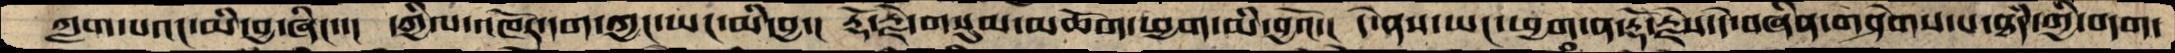ཀླག་པའང་མི་བྱ་ཞིང་་།  དཀྱིལ་འཁོར་དག་ཀྱང་ཡང་མི་བྱ་།  རྡོ་རྗེ་གསུམ་མཆོག་ཕྱག་མི་བྱའོ་།  དེ་ནས་ཡང་ཕྱག་ན་རྡོ་རྗེས་དེ་བཞིན་གཤེགས་པ་ཐདཾ་ཀྱི་བདག་
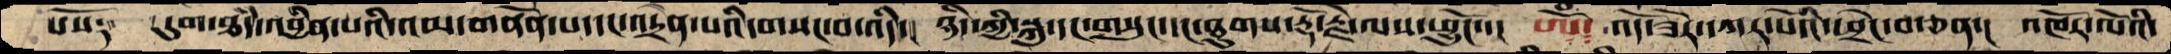པོས༑  དུག་ཐདཾ་འབྱིན་པའི་གནོན་པ་དང་འདྲེན་པའི་གསང་བ་འདི་།  ཉིད་ཀྱི་སྐུ་དང་གསུང་དང་ཐུགས་རྡོ་རྗེ་ལས་ཕྱུངོ་་།  ཨོཾ༴  འོད་ཟེར་དཀར་པོའི་ཕྲེང་བ་ཅན་།  འཁོར་ལོའི་
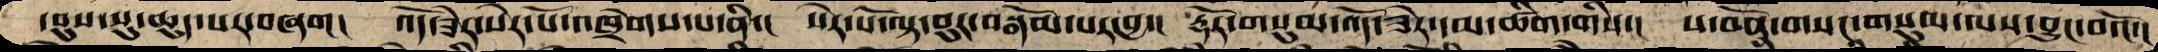དབུས་སུ་ཆུད་པར་བཞག།  འོད་ཟེར་སེར་པོ་འཁྲེགས་པ་ནི་།  སེར་པོ་ལྟ་བུར་བསྒོམ་པར་བྱ་།  རྡོར་གསུམ་འོད་ཟེར་དམ་ཚིག་གིས་།  ས་བོན་གསང་གསུམ་ལས་བྱུང་བའོ་།
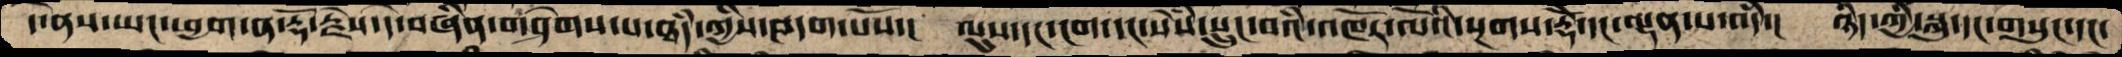དེ་ནས་ཡང་ཕྱག་ན་རྡོ་རྗེས་དེ་བཞིན་གཤེགས་པ་ཐཾད་ཀྱིས་བདག་པོས་།  ལུས་དང་ངག་དང་སེཾས་སྲུང་བའི་འཁོར་ལོའི་སྔགས་རྡོེ་་དང་ལྡན་པ་འདི་།  ཉིད་ཀྱི་སྐུ་དང་གསུང་དང་
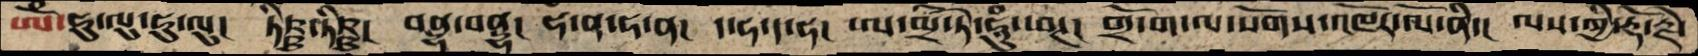ཨོཾ་ཧུ་ལུ་ཧུ་ལུ།  ཏིཥྛ་ཏིཥྛ།  བྷནྡྷ་བྷནྡྷ།  ཧ་ན་ཧ་ན།  ད་ཧ་ད་ཧ།  ཨ་མྲི་ཏེ་ཧཱུཾ་ཕཊ།  གྲོ་ག་ལ་སོགས་འཁོར་ལོ་ནི་།  ལས་ཀྱི་རྡོ་རྗེ་
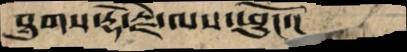ཐུགས་རྡོ་རྗེ་ལས་ཕྱུངོ་།
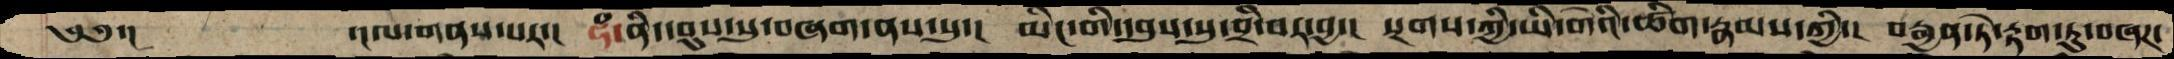༄༅་།    ་།ལ་གནས་པར་།  ཧཾ་ནི་དབུས་སུ་བཞག་ནས་སུ་།  མིང་གི་དབུས་སུ་བྲི་བར་བྱ་།  སྔགས་ཀྱི་ཡི་གེའི་ཚིག་རྣམས་ཀྱི་།  བརྒྱན་ཏེ་རྟག་ཏུ་བཞཌ་
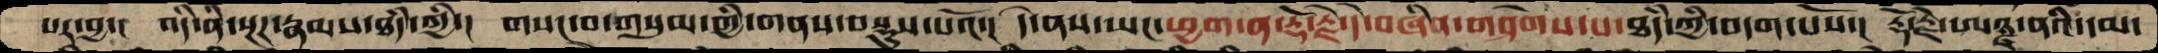པར་བྱ་།   འདི་ནི་སྔཌ་རྣམས་ཐཾད་ཀྱི་།  གསང་བ་གསུམ་གྱི་གནས་བསྡུས་པའོ་།  དེ་ནས་ཡང་ཕྱག་ན་རྡོ་རྗེ་དེ་བཞིན་གཤེགས་པ་ཐཾད་ཀྱི་བདག་པོས་།  རྡོ་རྗེ་ཨཉྫ་ནའི་དམ་
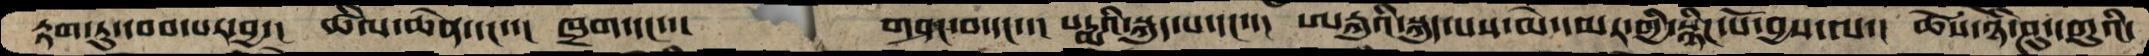རྟག་ཏུ་དབབ་པར་བྱ་།   ཚིལ་ཆེན་དང་་།  ཁྲག་དང་་།   གཤང་བ་དང་་།  པདྨའི་སྐུད་པ་དང་་།  ཨརྐུའི་སྐུད་པས་མེ་དམར་གྱི་སྙིང་པོ་བྱས་ལ་།  ཚེས་ཉི་ཤུ་དགུའི་
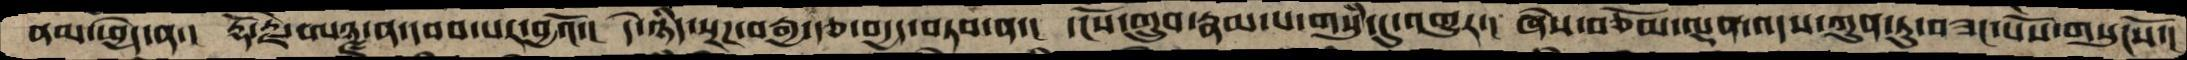ནམ་ཕྱེད་ན་།  རྡོ་རྗེ་ཨཉྫ་ན་དབབ་པར་བྱའོ་།  དེ་ཉིད་སྔཌ་བརྒྱ་རྩ་བདྱད་བཏབ་ན་།  དངོས་གྲུབ་རྣམ་པ་གསུཾ་དུ་འགྱུར་།  ཞེས་བཅོམ་ལྡན་འདས་ཀུན་ཏུ་བཟང་པོས་གསུངསོ་།
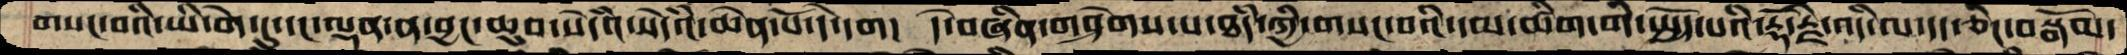གསང་བའི་ཡི་གེ་དུ་དང་ལྡན་ན་བྱང་ཆུབ་སེདཾའ་སེདཾའ་ཆེན་པོ་དེ་དག།  དེ་བཞིན་གཤེགས་པ་ཐཾད་ཀྱི་གསང་བའི་དམ་ཚིག་གི་སྤྱོད་པའི་རྡོ་རྗེ་འདི་ལ་དད་ཅིང་བསྒོམ་
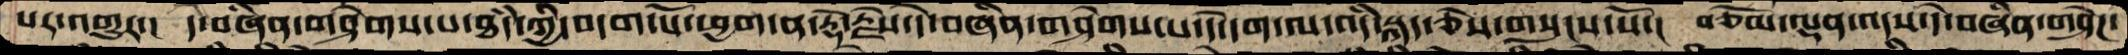པར་འགྱུར་།  དེ་བཞིན་གཤེགས་པ་ཐདཾ་ཀྱི་བདག་པོ་ཕྱག་ན་རྡོ་རྗེས་དེ་བཞིན་གཤེགས་པ་དེ་དག་ལ་འདི་སྐད་ཅེས་གསུངས་སོ་།  བཅོམ་ལྡན་འདས་དེ་བཞིན་གཤེཌ་
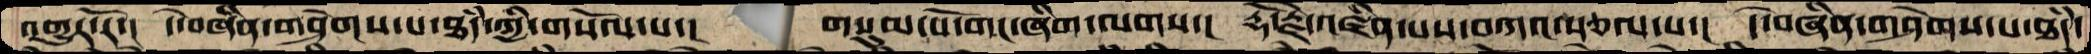འགྱུར་རོ་།  དེ་བཞིན་གཤེགས་པ་ཐདཾ་ཀྱི་གསོལ་པ་།  གསུམ་པོ་གང་ཞིག་ལགས་།  རྡོ་རྗེ་འཛིན་པས་བཀའ་སྩལ་པ་།  དེ་བཞིན་གཤེགས་པ་ཐདཾ་
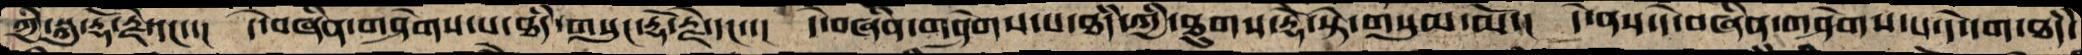ཀྱི་སྐུ་རྡོ་རྗེ་དང་་།   དེ་བཞིན་གཤེགས་པ་ཐདཾ་གསུང་རྡོ་རྗེ་དང་་།  དེ་བཞིན་གཤེགས་པ་ཐདཾ་ཀྱི་ཐུགས་རྡོེ་སྟེ་གསུམ་མོ་།  དེ་ནས་དེ་བཞིན་གཤེགས་པ་དེ་དག་ཐདཾ་
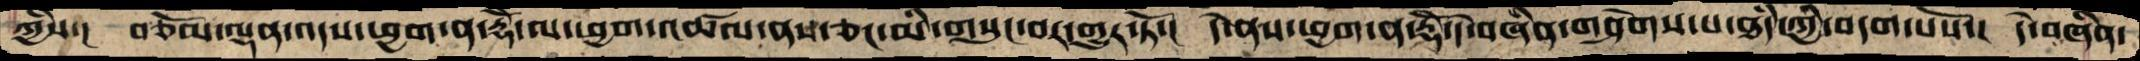ཀྱིས་།  བཅོམ་ལྡན་འདས་ཕྱག་ན་རྡོེ་ལ་ཕྱག་འཚལ་ནས་ཅང་མི་གསུང་བར་གྱུར་ཏོ་།  དེ་ནས་ཕྱག་ན་རྡོེ་དེ་བཞིན་གཤེགས་པ་ཐདཾ་ཀྱི་བདག་པོས་།  དེ་བཞིན་
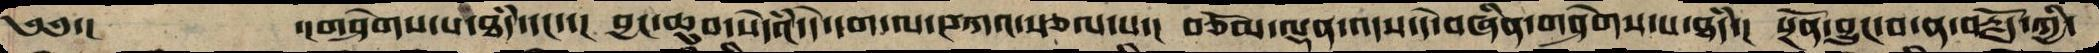༄༅་།    ་།གཤེགས་པ་ཐདཾ་དང་་།  བྱང་ཆུབ་སེདཾའ་དེ་དག་ལ་བཀའ་སྩལ་པ་།  བཅོམ་ལྡན་འདས་དེ་བཞིན་གཤེགས་པ་ཐདཾ་།  སྔོན་བྱུང་བ་ན་བརྗོད་ཀྱི་
